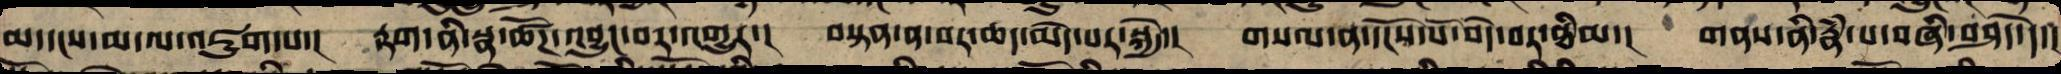མ་དངས་མ་ལ་འཇུག་པ་།  རྟག་ནི་སྣ་ཚོཌ་འབྱུང་བར་འགྱུར་།  བསྟན་ན་བར་ཆད་མེད་པར་སྐྱེ་།  གསལ་ན་དངོས་པོ་བདེ་བར་ཐིམ་།  གནས་ནི་རྣཾ་པ་བཞི་བཤད་དེ་།
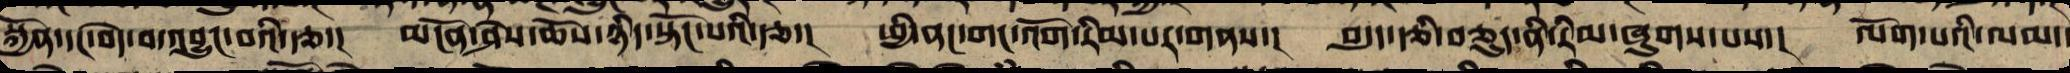སྐྱོན་དང་བདེ་བ་འབྱུང་བའི་རྩ་།  མངོན་ཤེས་ཆོས་ཉིད་སྟོང་པའི་རྩ་།  ཕྱི་ནང་གང་འོག་རིམ་པར་གནས་།  བདུད་རྩི་བཅུད་ནི་རིམ་ཞུགས་པས་།  ལོག་པའི་ལམ་
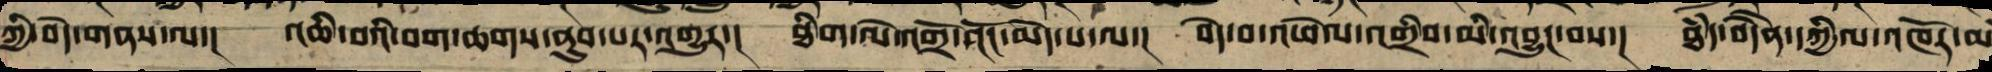ཀྱི་བདེ་གནས་ལ་།  འཆི་བའི་བག་ཆགས་ནུབ་པར་འགྱུར་།  ཐིག་ལེ་འགྲོ་འོང་མེད་པ་ལ་།  བདེ་བ་འཕེལ་འགྲིབ་མི་འབྱུང་བས་།  ཐཾད་བདེཻན་དཀྱིལ་འཁོར་མ
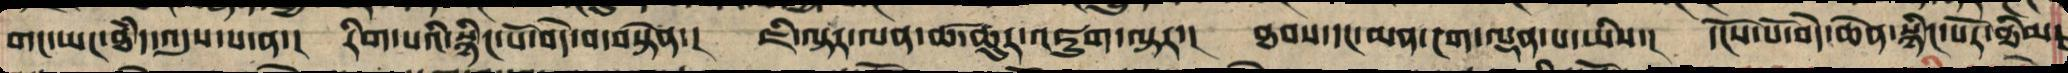གང་ཡང་ཐཾད་འདུས་པ་ན་། རིག་པའི་སྙིང་པོ་བདེ་བ་བསྟེན་། ཇི་ལྟར་ལན་ཚ་ཆུར་འཇུག་ལྟར་། ཐབས་དང་མན་ངག་ལྡན་པ་ཡིས་། དངོས་པོ་བདེ་ཆེན་སྙིང་པོར་ཐིམ་
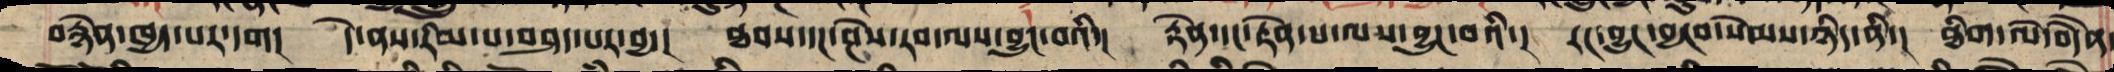བརྙེན་ཁྱད་པར་དག། དེ་ནས་རིམ་པར་བཤད་པར་བྱ་། ཐབས་དང་ཤེས་རབ་ལས་བྱུང་བའི་། རྟེན་དང་བརྟེན་པ་ལས་བྱུང་བ་། རང་བྱུང་བྱུཾབ་སེམས་ཉིད་ནི་། ཐིག་ལེ་བདཻན་
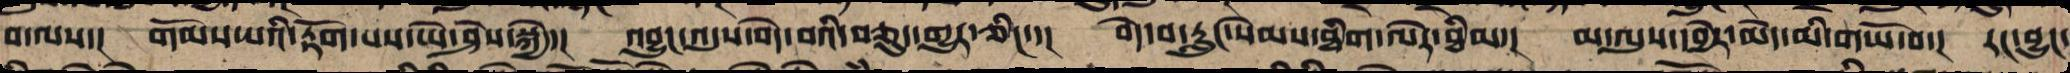བ་ལས་། གོམས་པའི་རྟོགས་པས་ཡེ་ཤེས་སྐྱེ་། འབྱུང་ལུས་བདེ་བའི་བཅུད་གྱུར་ཅིང་་། བདེ་བ་རླུང་སེམས་ཐིག་ལེར་ཐིམ་། མ་ལུས་དབྱེར་མེད་མི་གཡོ་བ་། རང་བྱུང་
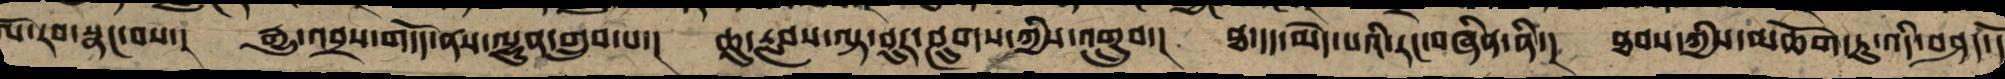སོ་རབ་སྣང་བས། རྒྱུ་འབྲས་གདོད་ནས་ལྷུན་གྲུབ་པ་། ཆུ་རླབས་ལྟ་བུར་ཤུགས་ཀྱིས་འགྲུབ་། ཐ་དད་མེད་པའི་རང་བཞིན་ནི་། ཐབས་ཀྱི་མཆོག་ཏུ་འདི་བཤད་དོ
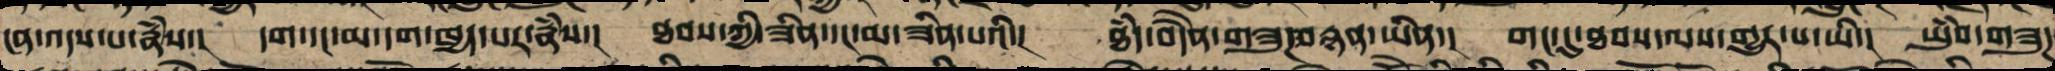ངན་འདས་པ་རྣཾས་། དག་དང་མ་དག་ཁྱད་པར་རྣཾས། ཐབས་ཀྱིས་ཟིན་དང་མ་ཟིན་པའི་། ཐཾད་བདཻན་གཟུཌ་བརྙན་ཡིན་། གང་དུ་ཐབས་ལས་གྱུར་པ་ཡི་། ཡུཾབ་གཟུཌ
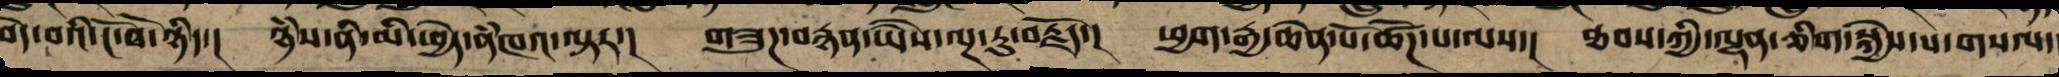བདེ་བའི་ངོ་བོ་ནི་། ཉཾས་ནི་མི་ཕྱེད་ནཾཁའ་ལྟར་། གཟུཌ་ཅན་ཡེ་ཤེས་ལྔ་རུ་བརྗོད་། ཕྱག་རྒྱ་ཆེན་པོ་ཚོཌ་པ་ལས་། ཐབས་ཀྱི་ལྷན་ཅིག་སྐྱེས་པ་གསལ་
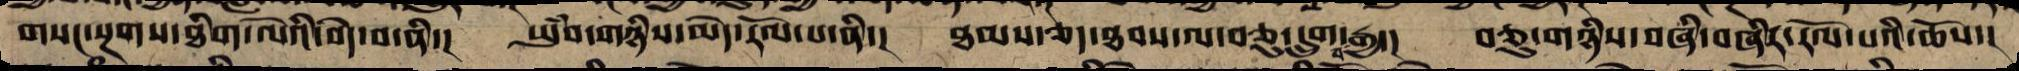གསང་སྔགས་ཐིག་ལེའི་བདེ་བ་ནི་། ཡུཾབ་གཉིས་མེད་རོལ་པ་ནི་། ཐམས་ཅད་ཐབས་ལ་བཅུ་དྲུག་བརྒྱ་། བཅུ་གཉིས་བཞི་བཞིར་རོལ་པའི་ཆོས་།
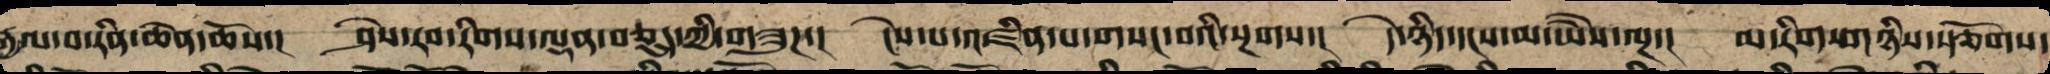རྒྱལ་བ་རིན་ཆེན་ཆོས་། ཤེས་རབ་རིགས་ལྡན་བཅུད་ཀྱི་གཟུཌ་། ངེས་པ་འཛིན་པ་གསང་བའི་སྔགས་། དེ་ཉིད་དྭངས་མ་ཡཻས་ལྔ་། མ་རིག་གཉིས་རྩོགས་
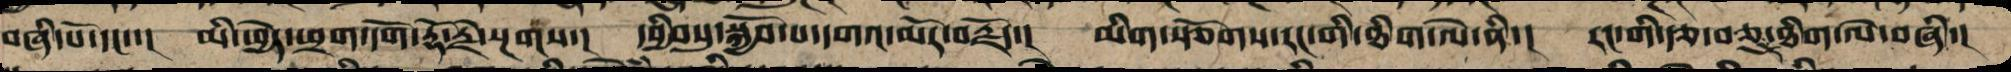བཞི་པོ་དང་་། མི་ཕྱེད་ཕྲག་དོག་རྡོ་རྗེ་སྔགས་། དབྱིབསུ་སྐྱོབ་པ་དགའ་མོར་བརྗོད་། མིག་རྩོགས་རང་གི་ཐིག་ལེ་ནི་། རང་གི་རྩ་བཅུ་ཐིག་ལེ་བཞི་།
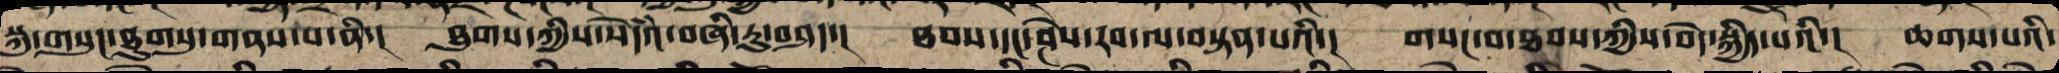སྐུ་གསུང་ཐུགསུ་གནས་པ་ནི་། ཐུགས་ཀྱི་སེདཾའ་བཞི་རུ་བཤད་། ཐབས་དང་ཤེས་རབ་ལ་བསྟན་པའི་། གསང་བ་ཐབས་ཀྱིས་བདེ་སྐྱིད་པའི་། ཆགས་པའི་
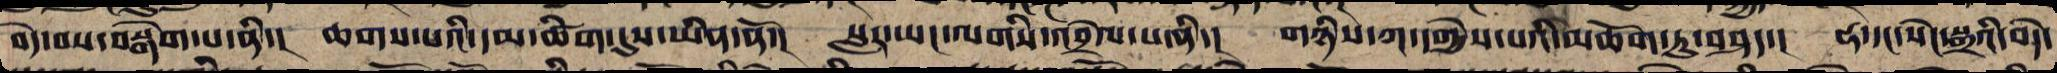བདེ་བས་བསྒེག་པ་ནི་། ཆགས་པའི་དམ་ཚིག་དུས་ཡིན་ནོ་། སླར་ཡང་ལགིས་འབྲེལ་པ་ནི་། གཉིས་ཀ་དགྱེས་པའི་མཆོག་ཏུ་བཤད་། ཧ་དང་སེང་སྒྲའི་བདེ་
